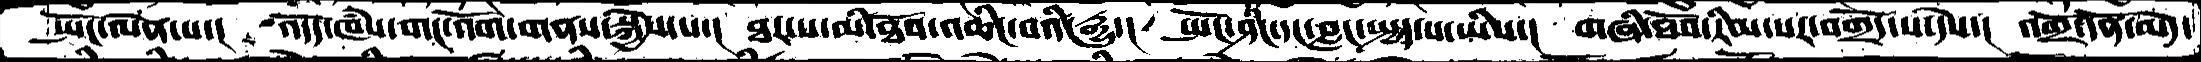སྤོང་ལེན་པ་།  འདོད་ཁཾས་གངོ་འོག་གནས་སྐྱེས་པ་།   ཐར་པ་མི་ཐོབ་འཆིང་བའི་རྒྱུ་།  སྤོང་ཤིང་དང་བླང་སྤྱད་པ་ཡིས་།  གཞི་ཐོབ་རིམ་པར་བགྲོད་པ་དེས་།  འགྲོ་དོན་མེད་
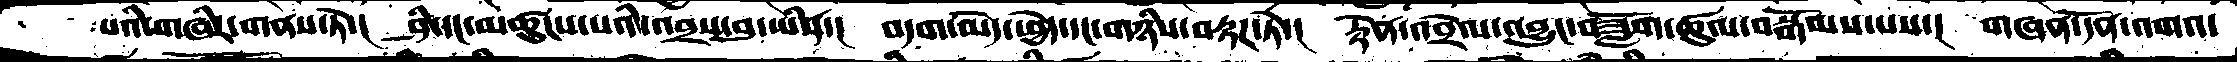པའི་གཞིར་གནས་ཏེ་།  ཤི་དང་མཚུངས་པའི་འབྲས་བུ་ཡིན་།  བདག་མེད་ཕྱེད་དང་གཉིས་བརྟཌ་ཏེ་།  རྟེན་འབྲེལ་འབྱུང་བཟློག་ཚུལ་བསྒོམས་པས་།  གཞན་དོན་འགའ་
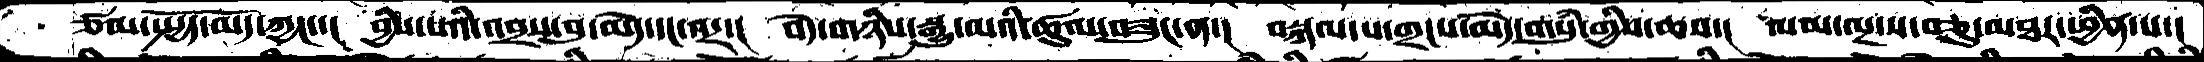ཙམ་སྤྱོད་མོད་ཀྱང་་།  བྱིས་པའི་འབྲས་བུ་མེད་དང་འདྲ་།  བདེ་གཉིས་སྒྱུ་མའི་ཚུལ་བཟུང་ན་།  བསྐལ་པ་གྲངས་མེད་གསུཾ་གྱིས་ཆབ་།  ལམ་ལྔ་ས་བཅུ་མཐར་ཕྱིན་པ་།
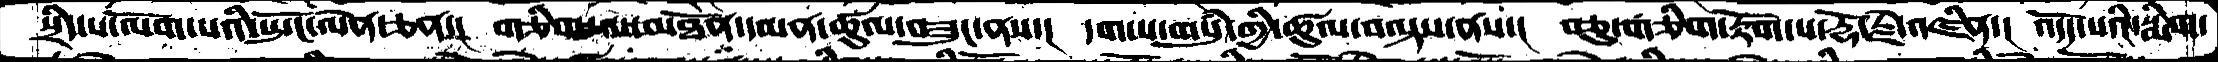སྲིད་པ་ལོག་པའི་སྤོང་ལེན་ཅན་།  གཅིག་ལ་མཐོན་དམན་ཚུལ་བཟུང་ནས་།  དག་པ་གསུཾ་གྱི་ཚུལ་བལྟས་ནས་།  བཅུ་གཅིག་རྟོག་པ་རྡོ་རྗེ་འཛིན་།  འདོད་པའི་སྨིག་
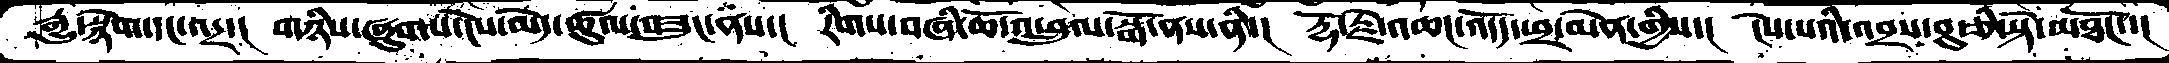རྒྱུ་སྙོག་དང་འདྲ་།  གཉིས་ཞུགས་ངེས་མེད་ཚུལ་བཟུང་ནས་།  རིགས་བཞི་ཆོ་འཕྲུལ་སྒོ་ནས་ནི་།  རྡོ་རྗེ་འཆང་འདོད་ཕྲ་མེན་གྱིས་།  ངེས་པའི་འབྲས་བུ་ཅི་སྟེ་མཐོང་་།
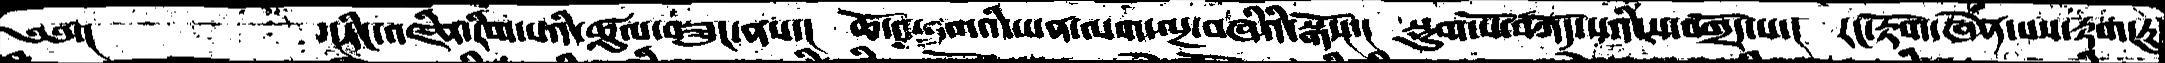༄༅་།  ་།ཏིང་འཛིན་རིག་པའི་ཚུལ་བཟུང་ནས་།  ཆོ་བ་བྲུགའི་ཡན་ལག་ལྔ་བཞིའི་སྒོ་ང་།  སྡུག་པོ་བཀོད་པའི་ས་བགྲོད་པ་།  རང་རྟོག་ཞེན་པས་རྟག་ཏུ
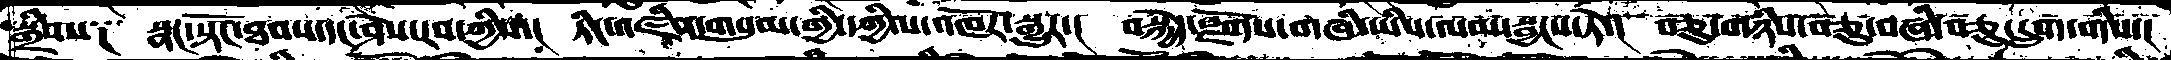བསྒྲིབས༑  སྣང་སྟོང་ཐབས་དང་ཤེས་རབ་ཀྱིས་།  ཏིང་འཛིན་གསུམ་གྱི་དཀྱིལ་འཁོར་སྒྱུར་།  བསྐྱེད་སྫོགས་གཞི་ཡིས་ལམ་སྦྱངས་ཏེ་།  བཅུ་གཉིས་བཅུ་བཞི་བཅུ་དྲུག་གིས་།
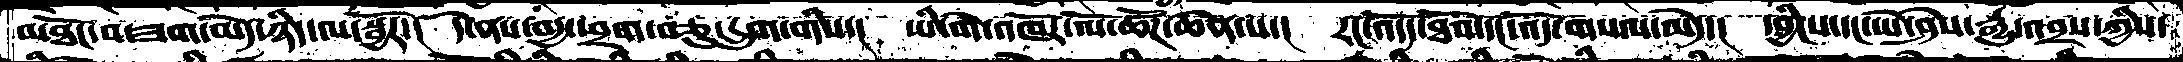མཐོང་བ་ཟག་མེད་ཉིད་ལ་སྦྱོར་།  དེ་ནས་བདྱ་ཕྲག་བཅུ་དྲུག་གིས་།  ཡི་གེ་འཁོར་ལོ་ཚོཌ་ཆེན་པ་།  རང་འདོད་ཐོབ་དང་འོད་གསལ་མེད་།  དབྱིས་དང་ཡེ་ཤེས་རྒྱུ་འབྲས་ཀྱིས་།
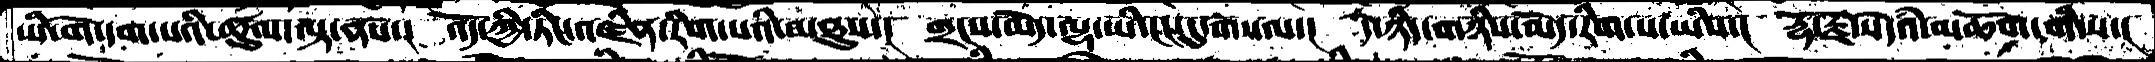ཡི་གེ་དག་པའི་ཚུལ་ལྟ་ནས་།  འོད་ཀྱི་ཏིང་འཛིན་རིག་པའི་མཐུས་།  གྲངས་མེད་ལྷ་ཡི་ངང་དུ་གསལ་།  དེ་ཉིད་གཉིས་མེད་རིག་པ་ཡིས་།  རྡོ་རྗེ་སེདཾའ་མཆོག་གི་ས་།
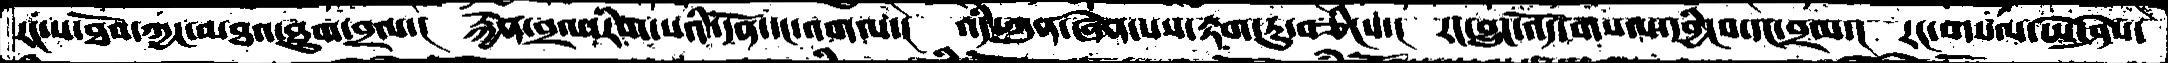རང་ས་ཐོབ་ཀྱང་མཐར་ཐུག་བྲལ་།  རྐྱེན་བྲལ་རིག་པའི་དོན་དང་འགལ་།  འདི་ཀུན་ཞེན་པས་རྟག་ཏུ་བཅིངས་།  རང་བྱུང་འོད་གསལ་དབྱིངས་དང་བྲལ་།  རང་གསལ་ཡེ་ཤེས་
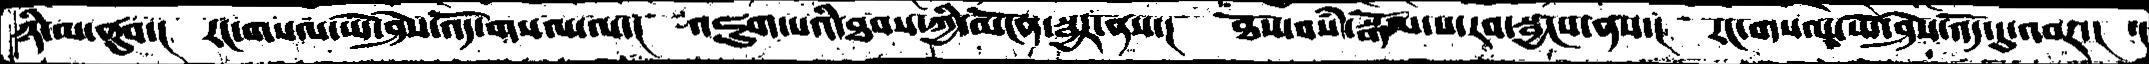ཉི་མ་ནུབ་།  རང་གསལ་ཡེ་ཤེས་འོད་གསལ་ལ་།  འཇུག་པའི་ཐབས་ཀྱི་མངོན་སྦྱར་ནས་།  ཐོས་བསཾ་སྒོམ་པ་རབ་སྦྱངས་ནས་།  རང་གསལ་ཡེ་ཤེས་འོད་དུ་འབར་།  ་།
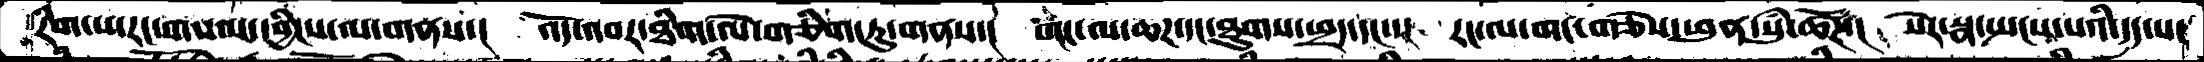རིག་པ་རང་གསལ་དབྱིངས་ལ་གནས་།  འོད་འབར་ཐིག་ལེ་གཅིག་ཏུ་གནས།  གང་ལ་ཆཌ་དང་ཐུགས་ཕྲད་དང་་།  རང་ལ་གང་གཅེས་ཕུན་སུཾ་ཚོཌ་།  སེར་སྣ་སྤངས་པའི་དད་པ་
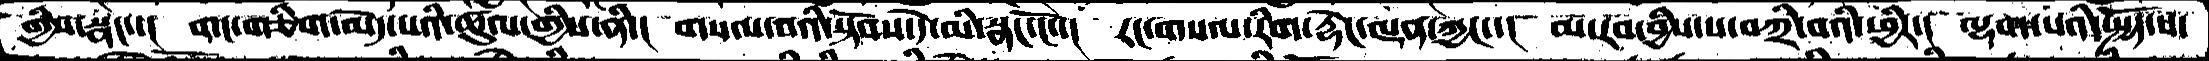གྱིས་སྣང་་།  གང་གཅིག་མེད་པའི་ཚུལ་གྱིས་ནི་།  གསལ་བའི་སྟོབས་དེ་མི་སྣང་ངོ་་།   རང་གསལ་རིག་རྡེང་ལྡན་ཀྱང་་།  མ་རབ་བྱིས་པ་བཀྲི་བའི་ཕྱིར་།  ལྷག་པའི་སྤྱོད་པ་
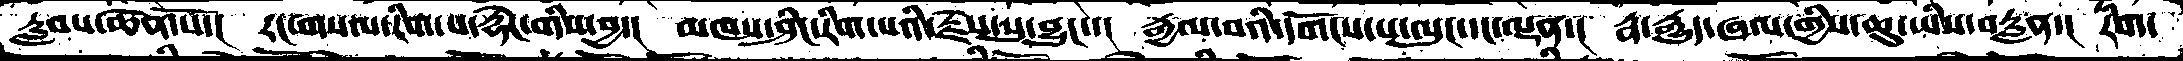རླབས་ཆེན་པོ་།   རང་གསལ་རིག་པ་རྡེང་གིས་བྱ་།  མཁས་ཤིང་རིག་པའི་རྗེས་སུ་བྱུང་་།  རྒྱལ་བའི་དགོངས་པ་ལུང་དང་ལྡན་།  རྣ་རྒྱུད་ཞལ་གྱིས་ཆུ་ཡིས་བརླན་།  རིག་
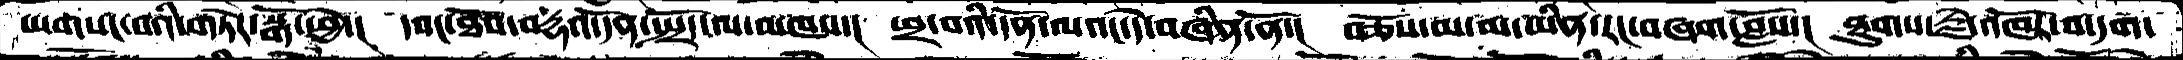པ་གསང་བའི་གཏེར་སྒོ་ཕྱེ་།   དབང་ཐོབ་བརྡའ་དོན་སྤྲོད་ལ་མཁས་།  ཕྲ་བའི་དོན་ལའང་དེ་བཞིན་ནོ་།  བཅོས་མ་མ་ཡིན་རང་བཞག་བློས་།  ཐུགས་རྗེ་འཁོར་བ་དག་
